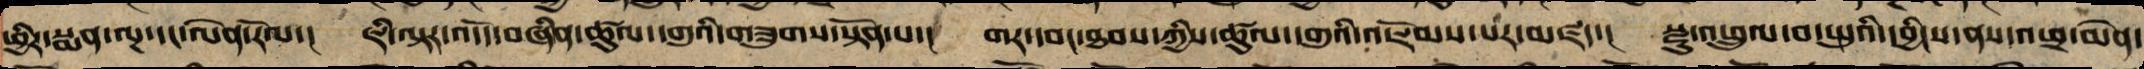ཕྱིར་སྨན་ལྔ་དང་ལེན་རོལ་། ཇི་ལྟར་འདོད་བཞིན་ཚུལ་དགུའི་གཟུགས་སྟོན་པ་། གར་དབང་ཐབས་ཀྱི་ཚུལ་དགུས་རོལ་པ་མཛད་། སྫུ་འཕྲུལ་བ་སྤུའི་དབྱིངས་ནས་ཕྲ་མེན་
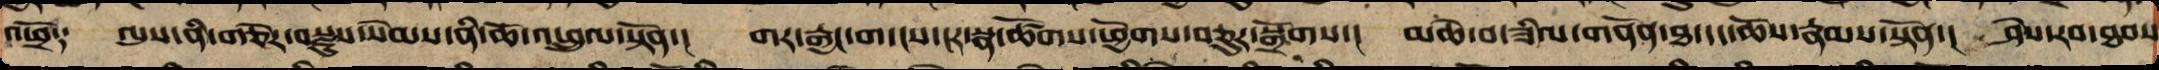འཕྲོ༑ ལུས་ནི་གཅེར་བརྫུས་སེམས་ནི་ཆོ་འཕྲུལ་སྟོན་། གར་རྒྱངས་གདངས་ངར་སྣ་ཚོགས་ཕྱོགས་བཅུར་སྒྲོགས་། མཆེ་བས་ཟིལ་གནོན་ཐ་དད་ཆོས་རྣམས་སྟོན་། ཤེས་རབ་ཐབས་
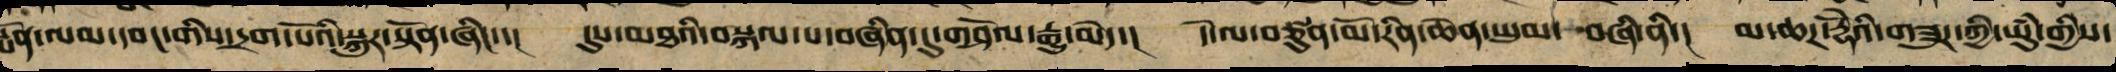སྨོན་ལམ་དབང་གི་དྲག་པོའི་སྐུར་སྟོན་ཞིང་་། དུས་མཐའི་བསྐལ་པ་བཞིན་དུ་བཤོལ་རྒྱུ་མེད་། དེ་ལ་བཙུན་མོ་རིན་ཆེན་ཡུམ་བཞི་ནི་། མ་ཆཌ་རྡོེའི་གཟུཌ་ཀྱི་ཡུཾ་གྱིས་
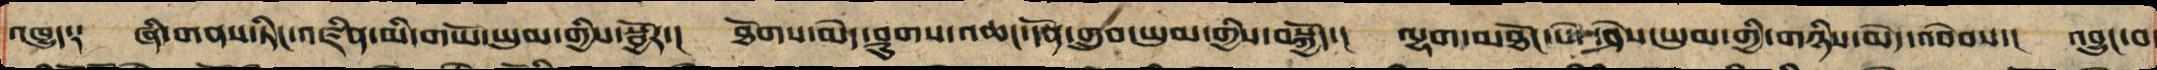འཁྱུད༑ ཞི་གནས་ཏིང་འཛིན་མི་གཡོ་ཡུམ་གྱིས་སྦྱོར་། ཐོགས་མེད་ཤུགས་འཆང་དོན་གྲུབ་ཡུམ་གྱིས་བསྐྱོད་། ལྷག་མཐོང་ཡེ་ཤེས་ཡུམ་གྱིས་གཉིས་མེད་འབེབས་། འབྱུང་བ་
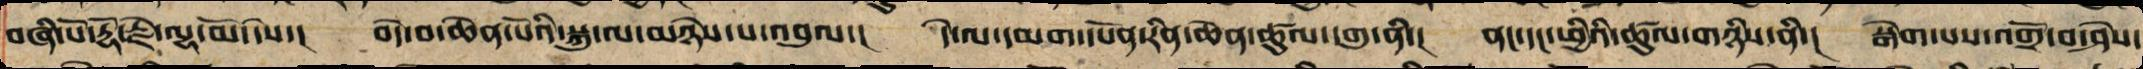བཞི་པོ་རྡོ་རྗེ་ལྷ་མོ་དེས་། བདེ་བ་ཆེན་པོའི་སྐུ་ལ་མཉེས་པ་འབུལ་། དེ་ལ་དམག་དཔོན་རིན་ཆེན་ཚུལ་དགུ་ནི་། ནང་དང་ཕྱིའི་ཚུལ་གཉིས་ནི་། སྒེག་པས་འགྲོ་བ་ཤེས་
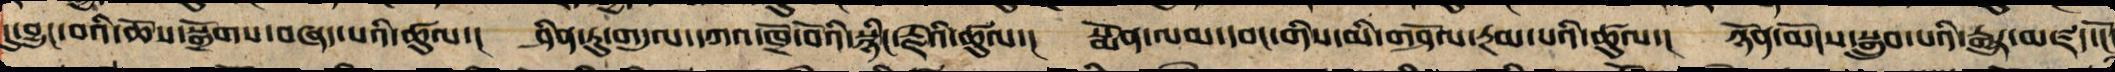དུ་བྱུང་བའི་ཆོས་སྒྲོགས་བཞད་པའི་ཚུལ་། ཤིན་ཏུ་གདུལ་དཀའ་ཁྲོ་བོའི་སྙིང་རྗེའི་ཚུལ་། སྨོན་ལམ་དབང་གིས་མི་བཤོལ་རྔམ་པའི་ཚུལ་། ཉོན་མོངས་གྲུབ་པའི་རྒྱུར་མཛད་ངོ་
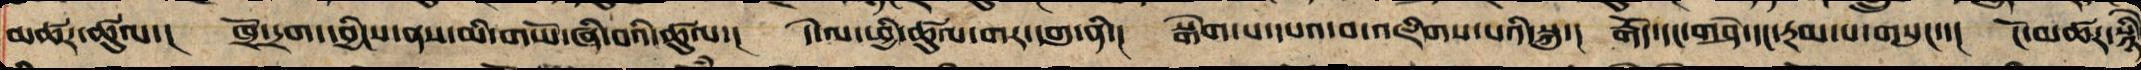མཚར་ཚུལ་། ཁྲོ་དྲག་དབྱིངས་ནས་མི་གཡོ་ཞི་བའི་ཚུལ་། དེ་ལ་ཕྱི་ཚུལ་གར་དགུ་ནི་། སྒེག་པ་དཔའ་བ་འཇིགས་པའི་སྐུ་། རྒོད་དང་གཤེ་དང་རྔམས་པ་གསུང་་། ངོ་མཚར་སྙིངེ
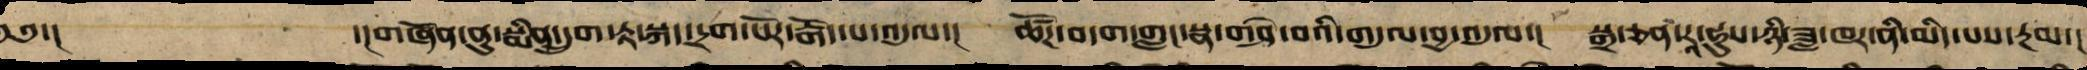༄༅་།       ་།གཞོན་ནུ་སྨིན་དྲུག་རྟ་སྐད་དྲག་པོར་རྒོད་པ་འདུལ་།  ཚོཌ་བདག་གླང་སྣ་གཤེ་བའི་གདུལ་བྱ་འདུལ་།  སྒྲ་ཅན་རཱ་ཧུས་ཉི་ཟླ་ཁར་ནི་མིད་པས་རྔམ་།
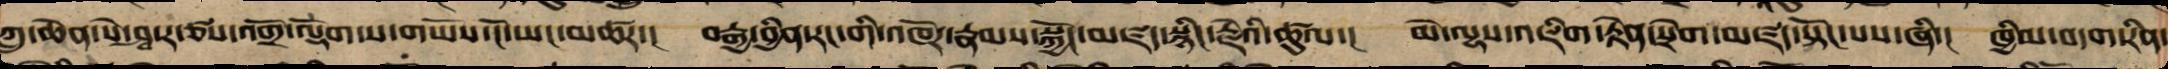ཀླུ་ཆེན་སེ་ཤྭ་ར་ཙས་འགྲོ་ལྡོག་ས་གཡོས་ངོ་ཡང་མཚར་།  བརྒྱ་བྱིན་རང་གི་འཁོར་རྣམས་སྐྱོང་མཛད་སྙིང་རྗེའི་ཚུལ་།  མེ་ལྷས་འཇིག་རྟེན་སྲེག་མཛད་སྟོང་པས་ཞི་།  ཁྱིམ་བདག་རིན་
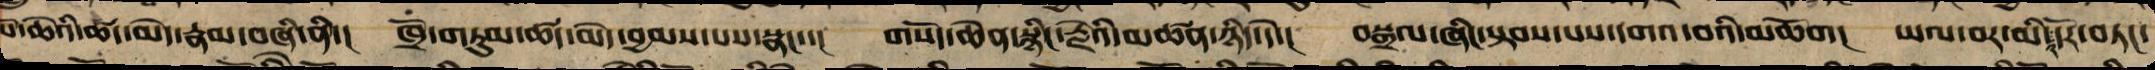པོ་ཆེའི་ཚད་མེད་རྣམ་བཞི་ནི་།  ཁྲོ་གཏུམ་ཚད་མེད་བྱམས་པས་སྣང་་།  གསོད་ཆེན་སྙིང་རྗེའི་མཚན་ཉིད་དེ་།  བསྒྲལ་ཞིང་སྟབས་པས་དགའ་བའི་མཆོག  ཡལ་བར་མི་དོར་བཏང་
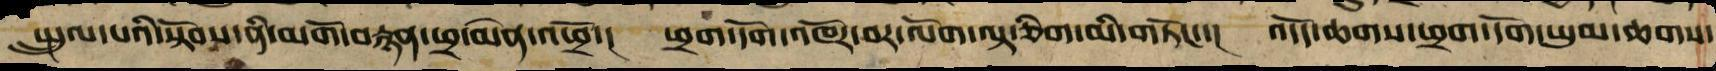སྤྲུལ་པའི་སྟོབས་ནི་མགོ་བརྙན་ཕྲ་མེན་འཕྲོ་།  ཕྲག་དོག་འཁོར་བར་ལོག་ལྟ་གཅིག་མི་གཏོང་་།  འདོད་ཆགས་ཕྲག་དོག་ཡུམ་ཆགས་
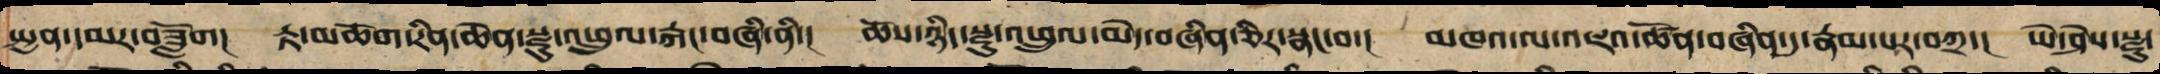སྤྱན་དམར་ཟློག། རྟ་མཆོག་རིན་ཆེན་སྫུ་འཕྲུལ་རྐང་བཞི་ནི་། ཆོས་ཉིད་སྫུ་འཕྲུལ་མེད་བཞིན་ཅིར་སྣང་བ་། མཁའ་ལ་འཇའ་ཚོན་བཞིན་དུ་རྣམ་པར་བཀྲ་། ཡེ་ཤེས་སྫུ་
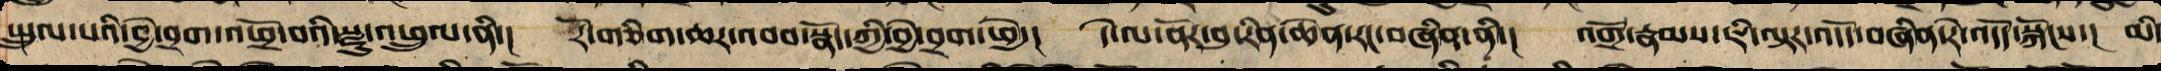སྤྲུལ་པའི་བྱེ་བྲག་འཕྲོ་བའི་སྫུ་འཕྲུལ་ནི་། རོ་གཅིག་ཆར་འབབ་སྣོད་ཀྱི་བྱེ་བྲག་ཕྱེ་། དེ་ལ་ནོར་བུ་རིན་ཆེན་རང་བཞིན་ནི་། འགྲོ་རྣམས་ཇི་ལྟར་འདུལ་བཞིན་རེ་འདོད་སྐོངས་། མི་
